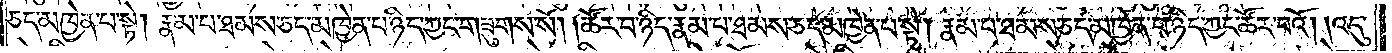ཅད་མཁྱེན་པ་སྟེ། རྣམ་པ་ཐམས་ཅད་མཁྱེན་པ་ཉིད་ཀྱང་གཟུགས་སོ། །ཚོར་བ་ཉིད་རྣམ་པ་ཐམས་ཅད་མཁྱེན་པ་སྟེ། རྣམ་པ་ཐམས་ཅད་མཁྱེན་པ་ཉིད་ཀྱང་ཚོར་བའོ། །འདུ་
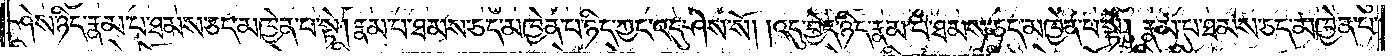ཤེས་ཉིད་རྣམ་པ་ཐམས་ཅད་མཁྱེན་པ་སྟེ། རྣམ་པ་ཐམས་ཅད་མཁྱེན་པ་ཉིད་ཀྱང་འདུ་ཤེས་སོ། །འདུ་བྱེད་ཉིད་རྣམ་པ་ཐམས་ཅད་མཁྱེན་པ་སྟེ། རྣམ་པ་ཐམས་ཅད་མཁྱེན་པ་
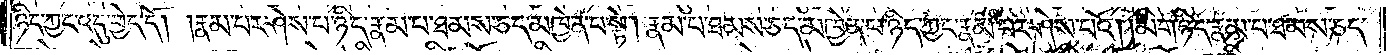ཉིད་ཀྱང་འདུ་བྱེད་དོ། །རྣམ་པར་ཤེས་པ་ཉིད་རྣམ་པ་ཐམས་ཅད་མཁྱེན་པ་སྟེ། རྣམ་པ་ཐམས་ཅད་མཁྱེན་པ་ཉིད་ཀྱང་རྣམ་པར་ཤེས་པའོ། །མིག་ཉིད་རྣམ་པ་ཐམས་ཅད་
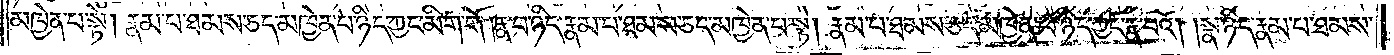མཁྱེན་པ་སྟེ། རྣམ་པ་ཐམས་ཅད་མཁྱེན་པ་ཉིད་ཀྱང་མིག་གོ །རྣ་བ་ཉིད་རྣམ་པ་ཐམས་ཅད་མཁྱེན་པ་སྟེ། རྣམ་པ་ཐམས་ཅད་མཁྱེན་པ་ཉིད་ཀྱང་རྣ་བའོ། །སྣ་ཉིད་རྣམ་པ་ཐམས་
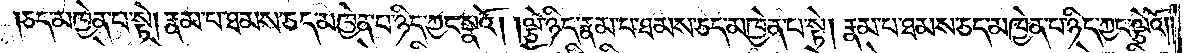ཅད་མཁྱེན་པ་སྟེ། རྣམ་པ་ཐམས་ཅད་མཁྱེན་པ་ཉིད་ཀྱང་སྣའོ། །ལྕེ་ཉིད་རྣམ་པ་ཐམས་ཅད་མཁྱེན་པ་སྟེ། རྣམ་པ་ཐམས་ཅད་མཁྱེན་པ་ཉིད་ཀྱང་ལྕེའོ། །
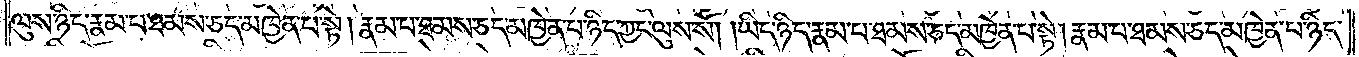ལུས་ཉིད་རྣམ་པ་ཐམས་ཅད་མཁྱེན་པ་སྟེ། རྣམ་པ་ཐམས་ཅད་མཁྱེན་པ་ཉིད་ཀྱང་ལུས་སོ། །ཡིད་ཉིད་རྣམ་པ་ཐམས་ཅད་མཁྱེན་པ་སྟེ། རྣམ་པ་ཐམས་ཅད་མཁྱེན་པ་ཉིད་
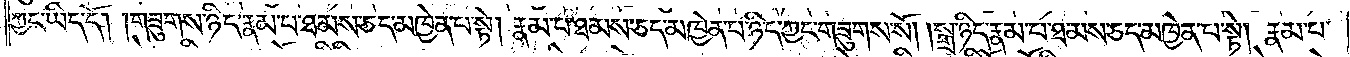ཀྱང་ཡིད་དོ། །གཟུགས་ཉིད་རྣམ་པ་ཐམས་ཅད་མཁྱེན་པ་སྟེ། རྣམ་པ་ཐམས་ཅད་མཁྱེན་པ་ཉིད་ཀྱང་གཟུགས་སོ། །སྒྲ་ཉིད་རྣམ་པ་ཐམས་ཅད་མཁྱེན་པ་སྟེ། རྣམ་པ་
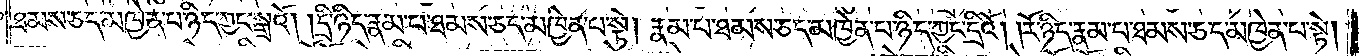ཐམས་ཅད་མཁྱེན་པ་ཉིད་ཀྱང་སྒྲའོ། །དྲི་ཉིད་རྣམ་པ་ཐམས་ཅད་མཁྱེན་པ་སྟེ། རྣམ་པ་ཐམས་ཅད་མཁྱེན་པ་ཉིད་ཀྱང་དྲིའོ། །རོ་ཉིད་རྣམ་པ་ཐམས་ཅད་མཁྱེན་པ་སྟེ།
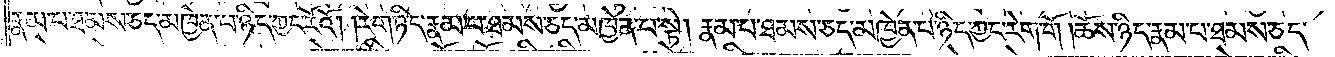རྣམ་པ་ཐམས་ཅད་མཁྱེན་པ་ཉིད་ཀྱང་རོའོ། །རེག་ཉིད་རྣམ་པ་ཐམས་ཅད་མཁྱེན་པ་སྟེ། རྣམ་པ་ཐམས་ཅད་མཁྱེན་པ་ཉིད་ཀྱང་རེག་གོ །ཆོས་ཉིད་རྣམ་པ་ཐམས་ཅད་
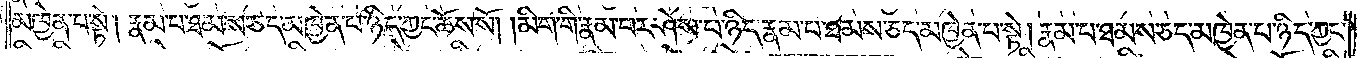མཁྱེན་པ་སྟེ། རྣམ་པ་ཐམས་ཅད་མཁྱེན་པ་ཉིད་ཀྱང་ཆོས་སོ། །མིག་གི་རྣམ་པར་ཤེས་པ་ཉིད་རྣམ་པ་ཐམས་ཅད་མཁྱེན་པ་སྟེ། རྣམ་པ་ཐམས་ཅད་མཁྱེན་པ་ཉིད་ཀྱང་
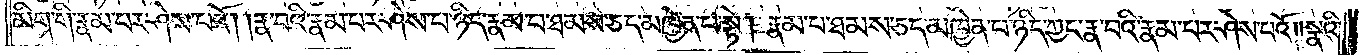མིག་གི་རྣམ་པར་ཤེས་པའོ། །རྣ་བའི་རྣམ་པར་ཤེས་པ་ཉིད་རྣམ་པ་ཐམས་ཅད་མཁྱེན་པ་སྟེ། རྣམ་པ་ཐམས་ཅད་མཁྱེན་པ་ཉིད་ཀྱང་རྣ་བའི་རྣམ་པར་ཤེས་པའོ། །སྣའི་
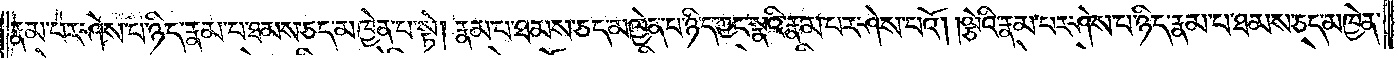རྣམ་པར་ཤེས་པ་ཉིད་རྣམ་པ་ཐམས་ཅད་མཁྱེན་པ་སྟེ། རྣམ་པ་ཐམས་ཅད་མཁྱེན་པ་ཉིད་ཀྱང་སྣའི་རྣམ་པར་ཤེས་པའོ། །ལྕེའི་རྣམ་པར་ཤེས་པ་ཉིད་རྣམ་པ་ཐམས་ཅད་མཁྱེན་
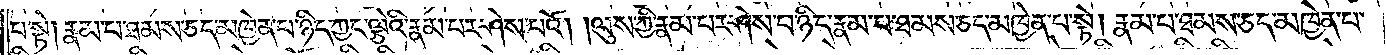པ་སྟེ། རྣམ་པ་ཐམས་ཅད་མཁྱེན་པ་ཉིད་ཀྱང་ལྕེའི་རྣམ་པར་ཤེས་པའོ། །ལུས་ཀྱི་རྣམ་པར་ཤེས་པ་ཉིད་རྣམ་པ་ཐམས་ཅད་མཁྱེན་པ་སྟེ། རྣམ་པ་ཐམས་ཅད་མཁྱེན་པ་
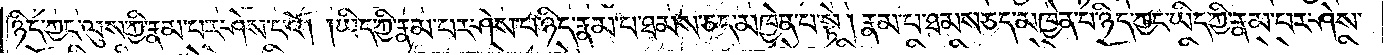ཉིད་ཀྱང་ལུས་ཀྱི་རྣམ་པར་ཤེས་པའོ། །ཡིད་ཀྱི་རྣམ་པར་ཤེས་པ་ཉིད་རྣམ་པ་ཐམས་ཅད་མཁྱེན་པ་སྟེ། རྣམ་པ་ཐམས་ཅད་མཁྱེན་པ་ཉིད་ཀྱང་ཡིད་ཀྱི་རྣམ་པར་ཤེས་
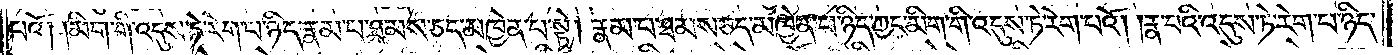པའོ། །མིག་གི་འདུས་ཏེ་རེག་པ་ཉིད་རྣམ་པ་ཐམས་ཅད་མཁྱེན་པ་སྟེ། རྣམ་པ་ཐམས་ཅད་མཁྱེན་པ་ཉིད་ཀྱང་མིག་གི་འདུས་ཏེ་རེག་པའོ། །རྣ་བའི་འདུས་ཏེ་རེག་པ་ཉིད་
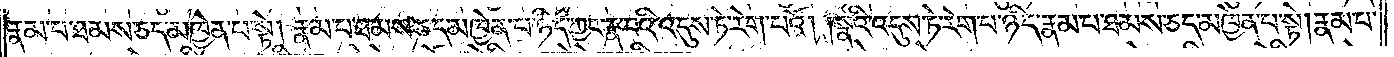རྣམ་པ་ཐམས་ཅད་མཁྱེན་པ་སྟེ། རྣམ་པ་ཐམས་ཅད་མཁྱེན་པ་ཉིད་ཀྱང་རྣ་བའི་འདུས་ཏེ་རེག་པའོ། །སྣའི་འདུས་ཏེ་རེག་པ་ཉིད་རྣམ་པ་ཐམས་ཅད་མཁྱེན་པ་སྟེ། རྣམ་པ་
